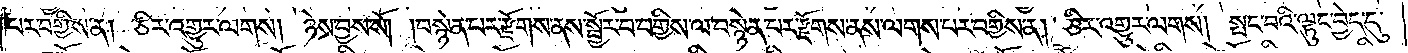པར་བགྱིས་ན། ཅིར་འགྱུར་ལགས། ཉེས་བྱས་སོ། །བསྙེན་པར་རྫོགས་ནས་སྦྱོར་བ་བགྱིས་ལ་བསྙེན་པར་རྫོགས་ནས་ལགས་པར་བགྱིས་ན། ཅིར་འགྱུར་ལགས། སྤང་བའི་ལྟུང་བྱེད་དུ་
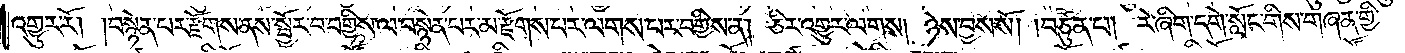འགྱུར་རོ། །བསྙེན་པར་རྫོགས་ནས་སྦྱོར་བ་བགྱིས་ལ་བསྙེན་པར་མ་རྫོགས་པར་ལགས་པར་བགྱིས་ན། ཅིར་འགྱུར་ལགས། ཉེས་བྱས་སོ། །བཙུན་པ། རེ་ཞིག་དགེ་སློང་གིས་གཞན་གྱི་
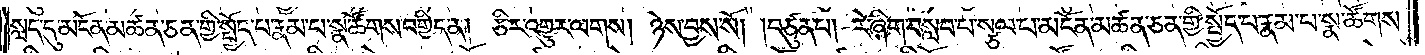སླད་དུ་མངོན་མཚན་ཅན་གྱི་སྤྱོད་པ་རྣམ་པ་སྣ་ཚོགས་བགྱིད་ན། ཅིར་འགྱུར་ལགས། ཉེས་བྱས་སོ། །བཙུན་པ། རེ་ཞིག་བསླབ་པ་སྩལ་པ་མངོན་མཚན་གྱི་སྤྱོད་པ་རྣམ་པ་སྣ་ཚོགས་
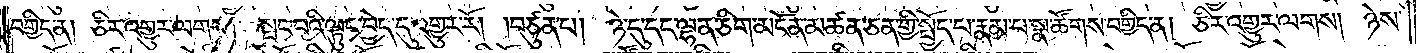བགྱིད་ན། ཅིར་འགྱུར་ལགས། སྤང་བའི་ལྟུང་བྱེད་དུ་འགྱུར་རོ། །བཙུན་པ། ཉེ་དུ་དང་ལྷན་ཅིག་མངོན་མཚན་ཅན་གྱི་སྤྱོད་པ་རྣམ་པ་སྣ་ཚོགས་བགྱིད་ན། ཅིར་འགྱུར་ལགས། ཉེས་
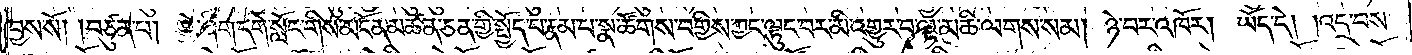བྱས་སོ། །བཙུན་པ། རེ་ཞིག་དགེ་སློང་གིས་མངོན་མཚན་ཅན་གྱི་སྤྱོད་པ་རྣམ་པ་སྣ་ཚོགས་བགྱིས་ཀྱང་ལྟུང་བར་མི་འགྱུར་བ་ལྟ་མཆིས་ལགས་སམ། ཉེ་བར་འཁོར། ཡོད་དེ། །འདྲ་བས་
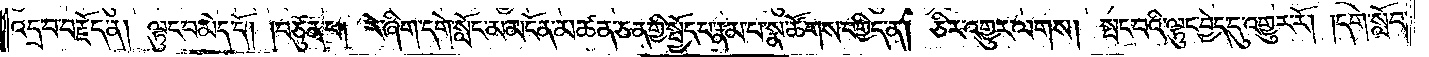འདྲ་བ་བརྗོད་ན། ལྟུང་བ་མེད་དོ། །བཙུན་པ། རེ་ཞིག་དགེ་སློང་མ་མངོན་མཚན་ཅན་གྱི་སྤྱོད་པ་རྣམ་པ་སྣ་ཚོགས་བགྱིད་ན། ཅིར་འགྱུར་ལགས། སྤང་བའི་ལྟུང་བྱེད་དུ་འགྱུར་རོ། །དགེ་སློང་
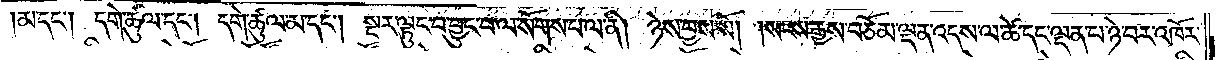མ་དང༌། དགེ་ཚུལ་དང༌། དགེ་ཚུལ་མ་དང༌། སྔར་ལྟུང་བ་བྱུང་བ་ལ་སོགས་པ་ལ་ནི། ཉེས་བྱས་སོ། །སངས་རྒྱས་བཅོམ་ལྡན་འདས་ལ་ཚེ་དང་ལྡན་པ་ཉེ་བར་འཁོར་
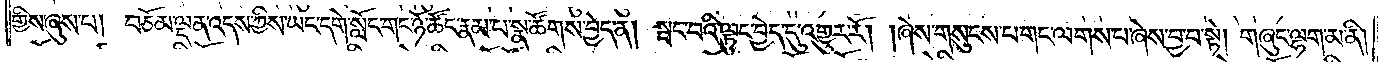གྱིས་ཞུས་པ། བཅོམ་ལྡན་འདས་ཀྱིས་ཡང་དགེ་སློང་གང་ཉོ་ཚོང་རྣམ་པ་སྣ་ཚོགས་བྱེད་ན། སྤང་བའི་ལྟུང་བྱེད་དུ་འགྱུར་རོ། །ཞེས་གསུངས་པ་གང་ལགས་པ་ཞེས་བྱ་བ་སྟེ། གཞུང་ལྷག་མ་ནི།
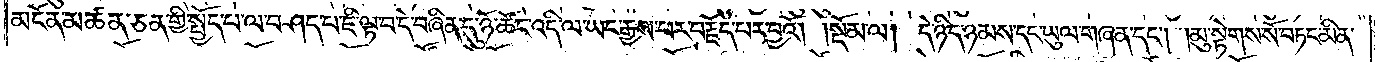མངོན་མཚན་ཅན་གྱི་སྤྱོད་པ་ལ་བཤད་པ་ཇི་ལྟ་བ་དེ་བཞིན་དུ་ཉོ་ཚོང་འདི་ལ་ཡང་རྒྱས་པར་བརྗོད་པར་བྱའོ།    །སྡོམ་ལ། དེ་ཉིད་ཉམས་དང་ཡུལ་གཞན་དང༌། །མུ་སྟེགས་སོ་བཏང་མིན་
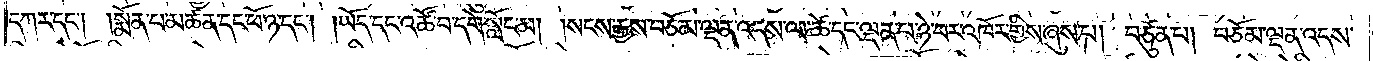དཀར་དང༌། །སྨོན་པ་མཚན་དང་ཕོ་ཉ་དང༌། །ཡོད་དང་འཚོ་བ་དགེ་སློང་མ། །སངས་རྒྱས་བཅོམ་ལྡན་འདས་ལ་ཚེ་དང་ལྡན་པ་ཉེ་བར་འཁོར་གྱིས་ཞུས་པ། བཙུན་པ། བཅོམ་ལྡན་འདས་
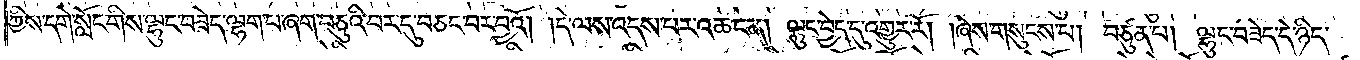ཀྱིས་དགེ་སློང་གིས་ལྷུང་བཟེད་ལྷག་པ་ཞག་བཅུའི་བར་དུ་བཅང་བར་བྱའོ། །དེ་ལས་འདས་པར་འཆང་ན། ལྟུང་བྱེད་དུ་འགྱུར་རོ། །ཞེས་གསུངས་པ། བཙུན་པ། ལྷུང་བཟེད་དེ་ཉིད་
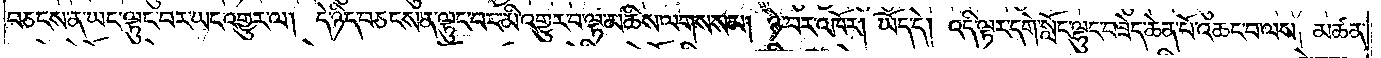བཅངས་ན་ཡང་ལྟུང་བར་ཡང་འགྱུར་ལ། དེ་ཉིད་བཅངས་ན་ལྟུང་བར་མི་འགྱུར་བ་ལྟ་མཆིས་ལགས་སམ། ཉེ་བར་འཁོར། ཡོད་དེ། འདི་ལྟར་དགེ་སློང་ལྷུང་བཟེད་ཆེན་པོ་འཆང་བ་ལས། མཚན་
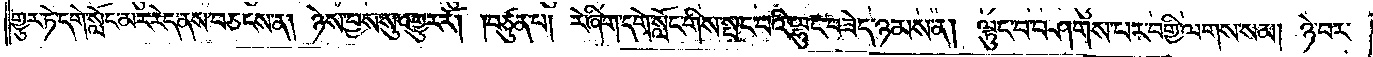གྱུར་ཏེ་དགེ་སློང་མར་རེད་ནས་བཅངས་ན། ཉེས་བྱས་སུ་འགྱུར་རོ། །བཙུན་པ། རེ་ཞིག་དགེ་སློང་གིས་སྤང་བའི་ལྷུང་བཟེད་ཉམས་ན། ལྟུང་བ་བཤགས་པར་བགྱི་ལགས་སམ། ཉེ་བར་
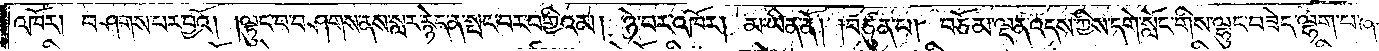འཁོར། བཤགས་པར་བྱའོ། །ལྟུང་བ་བཤགས་ནས་སླར་རྙེད་ན་སྤང་བར་བགྱིའམ། ཉེ་བར་འཁོར། མ་ཡིན་ནོ། །བཙུན་པ། བཅོམ་ལྡན་འདས་ཀྱིས་དགེ་སློང་གིས་ལྷུང་བཟེད་ལྷག་པ་ཞག
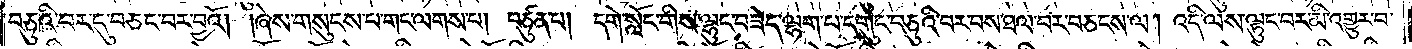བཅུའི་བར་དུ་བཅང་བར་བྱའོ། །ཞེས་གསུངས་པ་གང་ལགས་པ། བཙུན་པ། དགེ་སློང་གིས་ལྷུང་བཟེད་ལྷག་པ་དགུང་བཅུའི་བར་བས་ཐལ་བར་བཅངས་ལ། འདི་ལས་ལྷུང་བར་མི་འགྱུར་བ་
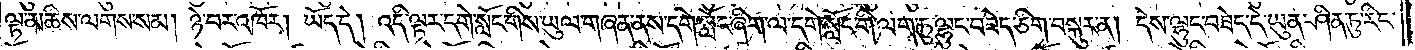ལྟ་མཆིས་ལགས་སམ། ཉེ་བར་འཁོར། ཡོད་དེ། འདི་ལྟར་དགེ་སློང་གིས་ཡུལ་གཞན་ནས་དགེ་སློང་ཞིག་ལ་དགེ་སློང་གི་ལག་ཏུ་ལྷུང་བཟེད་ཅིག་བསྐུར་ན། དེས་ལྷུང་བཟེད་དེ་ཡུན་ཤིན་ཏུ་རིང་
